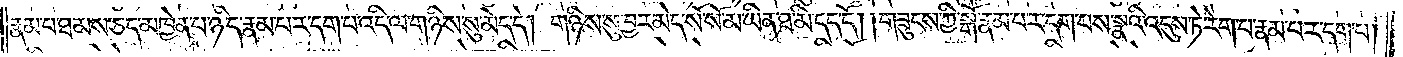རྣམ་པ་ཐམས་ཅད་མཁྱེན་པ་ཉིད་རྣམ་པར་དག་པ་འདི་ལ་གཉིས་སུ་མེད་དེ། གཉིས་སུ་བྱར་མེད་སོ་སོ་མ་ཡིན་ཐ་མི་དད་དོ། །གཟུངས་ཀྱི་སྒོ་རྣམ་པར་དག་པས་སྣའི་འདུས་ཏེ་རེག་པ་རྣམ་པར་དག་པ།
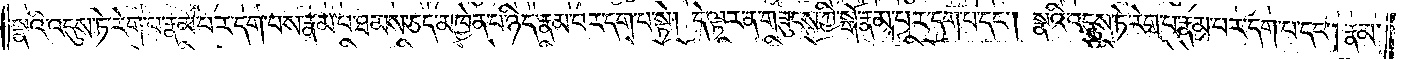སྣའི་འདུས་ཏེ་རེག་པ་རྣམ་པར་དག་པས་རྣམ་པ་ཐམས་ཅད་མཁྱེན་པ་ཉིད་རྣམ་པར་དག་པ་སྟེ། དེ་ལྟར་ན་གཟུངས་ཀྱི་སྒོ་རྣམ་པར་དག་པ་དང༌། སྣའི་འདུས་ཏེ་རེག་པ་རྣམ་པར་དག་པ་དང༌། རྣམ་
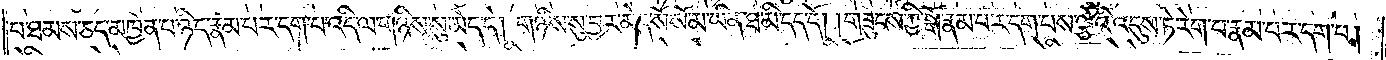པ་ཐམས་ཅད་མཁྱེན་པ་ཉིད་རྣམ་པར་དག་པ་འདི་ལ་གཉིས་སུ་མེད་དེ། གཉིས་སུ་བྱར་མེད་སོ་སོ་མ་ཡིན་ཐ་མི་དད་དོ། །གཟུངས་ཀྱི་སྒོ་རྣམ་པར་དག་པས་ལྕེའི་འདུས་ཏེ་རེག་པ་རྣམ་པར་དག་པ།
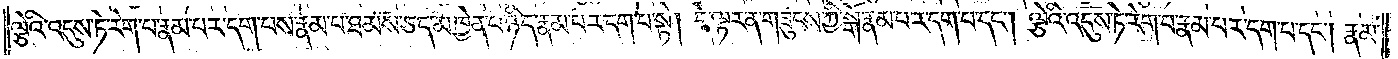ལྕེའི་འདུས་ཏེ་རེག་པ་རྣམ་པར་དག་པས་རྣམ་པ་ཐམས་ཅད་མཁྱེན་པ་ཉིད་རྣམ་པར་དག་པ་སྟེ། དེ་ལྟར་ན་གཟུངས་ཀྱི་སྒོ་རྣམ་པར་དག་པ་དང༌། ལྕེའི་འདུས་ཏེ་རེག་པ་རྣམ་པར་དག་པ་དང༌། རྣམ་
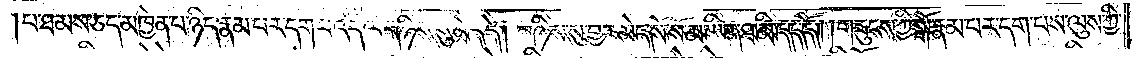པ་ཐམས་ཅད་མཁྱེན་པ་ཉིད་རྣམ་པར་དག་པ་འདི་ལ་གཉིས་སུ་མེད་དེ། གཉིས་སུ་བྱར་མེད་སོ་སོ་མ་ཡིན་ཐ་མི་དད་དོ། །གཟུངས་ཀྱི་སྒོ་རྣམ་པར་དག་པས་ལུས་ཀྱི་
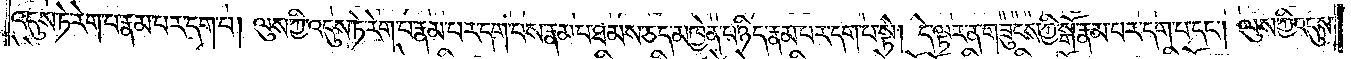འདུས་ཏེ་རེག་པ་རྣམ་པར་དག་པ། ལུས་ཀྱི་འདུས་ཏེ་རེག་པ་རྣམ་པར་དག་པས་རྣམ་པ་ཐམས་ཅད་མཁྱེན་པ་ཉིད་རྣམ་པར་དག་པ་སྟེ། དེ་ལྟར་ན་གཟུངས་ཀྱི་སྒོ་རྣམ་པར་དག་པ་དང༌། ལུས་ཀྱི་འདུས་
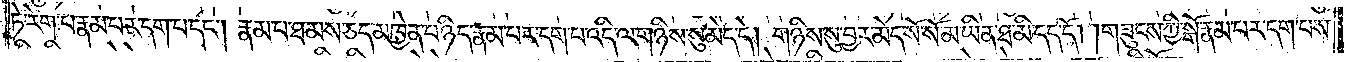ཏེ་རེག་པ་རྣམ་པར་དག་པ་དང༌། རྣམ་པ་ཐམས་ཅད་མཁྱེན་པ་ཉིད་རྣམ་པར་དག་པ་འདི་ལ་གཉིས་སུ་མེད་དེ། གཉིས་སུ་བྱར་མེད་སོ་སོ་མ་ཡིན་ཐ་མི་དད་དོ། །གཟུངས་ཀྱི་སྒོ་རྣམ་པར་དག་པས་
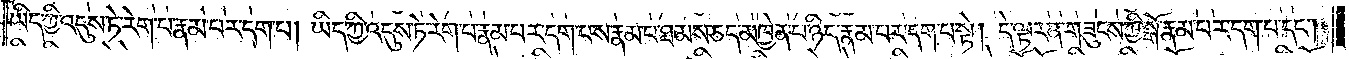ཡིད་ཀྱི་འདུས་ཏེ་རེག་པ་རྣམ་པར་དག་པ། ཡིད་ཀྱི་འདུས་ཏེ་རེག་པ་རྣམ་པར་དག་པས་རྣམ་པ་ཐམས་ཅད་མཁྱེན་པ་ཉིད་རྣམ་པར་དག་པ་སྟེ། དེ་ལྟར་ན་གཟུངས་ཀྱི་སྒོ་རྣམ་པར་དག་པ་དང༌།
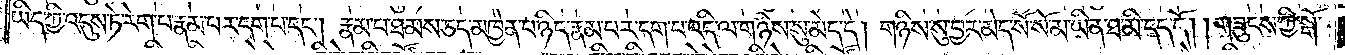ཡིད་ཀྱི་འདུས་ཏེ་རེག་པ་རྣམ་པར་དག་པ་དང༌། རྣམ་པ་ཐམས་ཅད་མཁྱེན་པ་ཉིད་རྣམ་པར་དག་པ་འདི་ལ་གཉིས་སུ་མེད་དེ། གཉིས་སུ་བྱར་མེད་སོ་སོ་མ་ཡིན་ཐ་མི་དད་དོ། །གཟུངས་ཀྱི་སྒོ་
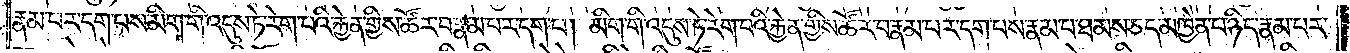རྣམ་པར་དག་པས་མིག་གི་འདུས་ཏེ་རེག་པའི་རྐྱེན་གྱིས་ཚོར་བ་རྣམ་པར་དག་པ། མིག་གི་འདུས་ཏེ་རེག་པའི་རྐྱེན་གྱིས་ཚོར་བ་རྣམ་པར་དག་པས་རྣམ་པ་ཐམས་ཅད་མཁྱེན་པ་ཉིད་རྣམ་པར་
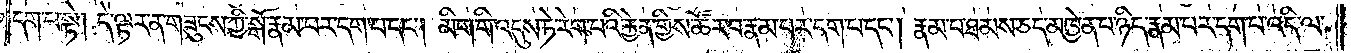དག་པ་སྟེ། དེ་ལྟར་ན་གཟུངས་ཀྱི་སྒོ་རྣམ་པར་དག་པ་དང༌། མིག་གི་འདུས་ཏེ་རེག་པའི་རྐྱེན་གྱིས་ཚོར་བ་རྣམ་པར་དག་པ་དང༌། རྣམ་པ་ཐམས་ཅད་མཁྱེན་པ་ཉིད་རྣམ་པར་དག་པ་འདི་ལ་
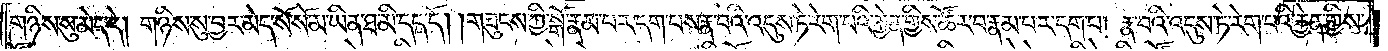གཉིས་སུ་མེད་དེ། གཉིས་སུ་བྱར་མེད་སོ་སོ་མ་ཡིན་ཐ་མི་དད་དོ། །གཟུངས་ཀྱི་སྒོ་རྣམ་པར་དག་པས་རྣ་བའི་འདུས་ཏེ་རེག་པའི་རྐྱེན་གྱིས་ཚོར་བ་རྣམ་པར་དག་པ། རྣ་བའི་འདུས་ཏེ་རེག་པའི་རྐྱེན་གྱིས་
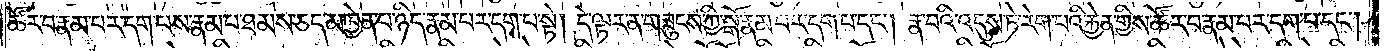ཚོར་བ་རྣམ་པར་དག་པས་རྣམ་པ་ཐམས་ཅད་མཁྱེན་པ་ཉིད་རྣམ་པར་དག་པ་སྟེ། དེ་ལྟར་ན་གཟུངས་ཀྱི་སྒོ་རྣམ་པར་དག་པ་དང༌། རྣ་བའི་འདུས་ཏེ་རེག་པའི་རྐྱེན་གྱིས་ཚོར་བ་རྣམ་པར་དག་པ་དང༌།
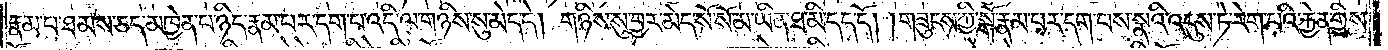རྣམ་པ་ཐམས་ཅད་མཁྱེན་པ་ཉིད་རྣམ་པར་དག་པ་འདི་ལ་གཉིས་སུ་མེད་དེ། གཉིས་སུ་བྱར་མེད་སོ་སོ་མ་ཡིན་ཐ་མི་དད་དོ། །གཟུངས་ཀྱི་སྒོ་རྣམ་པར་དག་པས་སྣའི་འདུས་ཏེ་རེག་པའི་རྐྱེན་གྱིས་
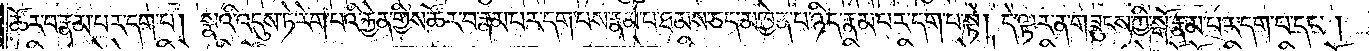ཚོར་བ་རྣམ་པར་དག་པ། སྣའི་འདུས་ཏེ་རེག་པའི་རྐྱེན་གྱིས་ཚོར་བ་རྣམ་པར་དག་པས་རྣམ་པ་ཐམས་ཅད་མཁྱེན་པ་ཉིད་རྣམ་པར་དག་པ་སྟེ། དེ་ལྟར་ན་གཟུངས་ཀྱི་སྒོ་རྣམ་པར་དག་པ་དང༌།
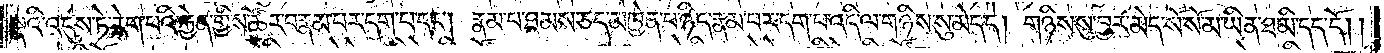སྣའི་འདུས་ཏེ་རེག་པའི་རྐྱེན་གྱིས་ཚོར་བ་རྣམ་པར་དག་པ་དང༌། རྣམ་པ་ཐམས་ཅད་མཁྱེན་པ་ཉིད་རྣམ་པར་དག་པ་འདི་ལ་གཉིས་སུ་མེད་དེ། གཉིས་སུ་བྱར་མེད་སོ་སོ་མ་ཡིན་ཐ་མི་དད་དོ། །
